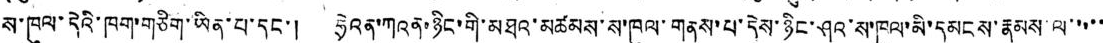ས་ཁུལ་དེའི་ཁག་གཅིག་ཡིན་པ་དང་། ཧྲེའན་ཀའན་ཉིང་གི་མཐའ་མཚམས་ས་ཁུལ་གནས་དེས་ཉིང་ཤའ་ས་ཁུལ་མི་དམངས་རྣམས་ལ་་་་་
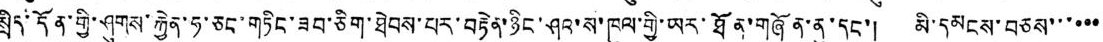སྲིད་དོན་གྱི་ཤུགས་རྐྱེན་ཧ་ཅང་གཏིང་ཟབ་ཅིག་ཐེབས་པར་བརྟེན་ཉིང་ཤའ་ས་ཁུལ་གྱི་ཡར་ཐོན་གཞོན་ནུ་དང་། མི་དམངས་བཅས་་་་་་
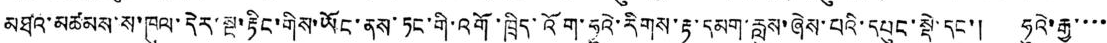མཐའ་མཚམས་ས་ཁུལ་དེར་སྔ་རྟིང་གིས་ཡོང་ནས་ཏང་གི་འགོ་ཁྲིད་འོག་ཧུའེ་རིགས་རྟ་དམག་རླུས་ཞེས་པའི་དཔུང་སྡེ་དང་། ཧུའེ་རྒྱ་་་་
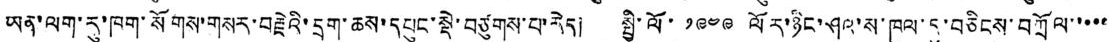ཡན་ལག་རུ་ཁག་སོགས་གསར་བརྗེའི་དྲག་ཆས་དཔུང་སྡེ་བཙུགས་པ་རེད། སྤྱི་ལོ་ ༡༩༤༩ ལོར་ཉིང་ཤའ་ས་ཁུལ་དུ་བཅིངས་བཀྲོལ་་་་་
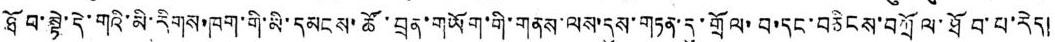ཐོབ་སྟེ་དེ་གའི་མི་རིགས་ཁག་གི་མི་དམངས་ཚོ་བྲན་གཡོག་གི་གནས་ལས་དུས་གཏན་དུ་གྲོལ་བ་དང་བཅིངས་བཀྲོལ་ཐོབ་པ་རེད།
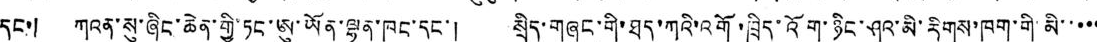དང་། ཀའན་སུ་ཞིང་ཆེན་གྱི་ཏང་ཨུ་ཡོན་ལྷན་ཁང་དང་། སྲིད་གཞུང་གི་ཐད་ཀའི་འགོ་ཁྲིད་འོག་ཉིང་ཤའ་མི་རིགས་ཁག་གི་མི་་་་་
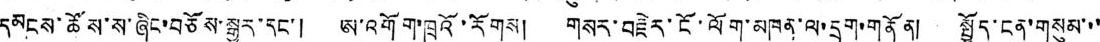དམངས་ཚོས་ས་ཞིང་བཅོས་སྒྱུར་དང་། ཨ་འགོག་ཁྲའོ་རོགས། གསར་བརྗེར་ངོ་ལོག་མཁན་ལ་དྲག་གནོན། སྤྱོད་ངན་གསུམ་་་
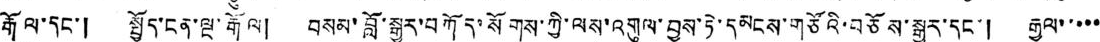རྒོལ་དང་། སྤྱོད་ངན་ལྔ་རྒོལ། བསམ་བློ་སྒྱུར་བཀོད་སོགས་ཀྱི་ལས་འགུལ་བྱས་ཏེ་དམངས་གཙོའི་བཅོས་སྒྱུར་དང་། རྒྱལ་་་་་
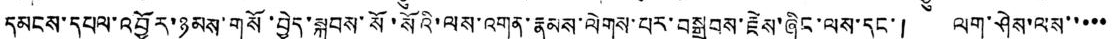དམངས་དཔལ་འབྱོར་ཉམས་གསོ་བྱེད་སྐབས་སོ་སོའི་ལས་འགན་རྣམས་ལེགས་པར་བསྒྲུབས་རྗེས་ཞིང་ལས་དང་། ལག་ཤེས་ལས་་་་་
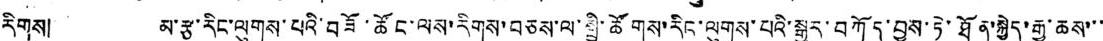རིགས། མ་རྩ་རིང་ལུགས་པའི་བཟོ་ཚོང་ལས་རིགས་བཅས་ལ་སྤྱི་ཚོགས་རིང་ལུགས་པའི་སྒྱུར་བཀོད་བྱས་ཏེ་ཐོན་སྐྱེད་རྒྱུ་ཆས་་་
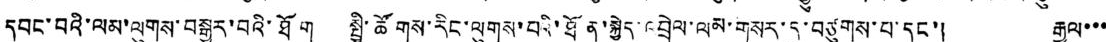དབང་བའི་ལམ་ལུགས་བསྒྱུར་བའི་ཐོག སྤྱི་ཚོགས་རིང་ལུགས་པའི་ཐོན་སྐྱེད་འབྲེལ་ལམ་གསར་དུ་བཙུགས་པ་དང་། རྒྱལ་་་
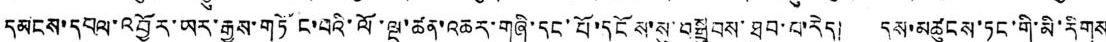དམངས་དཔལ་འབྱོར་ཡར་རྒྱས་གཏོང་བའི་ལོ་ལྔ་ཚན་འཆར་གཞི་དང་པོ་དངོས་སུ་བསྒྲུབས་ཐུབ་པ་རེད། དུས་མཚུངས་ཏང་གི་མི་རིགས
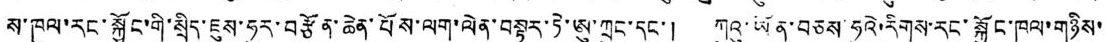ས་ཁུལ་རང་སྐྱོང་གི་སྲིད་ཇུས་ཧུར་བརྩོན་ཆེན་པོས་ལག་ལེན་བསྟར་ཏེ་ཨུ་ཀྲུང་དང་། ཀུའུ་ཡོན་བཅས་ཧུའེ་རིགས་རང་སྐྱོང་ཁུལ་གཉིས་་
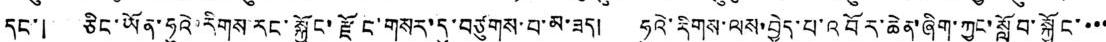དང་། ཅིང་ཡོན་ཧུའེ་རིགས་རང་སྐྱོང་རྫོང་གསར་དུ་བཙུགས་པ་མ་ཟད། ཧུའེ་རིགས་ལས་བྱེད་པ་འབོར་ཆེན་ཞིག་ཀྱང་སློབ་སྐྱོང་་་་
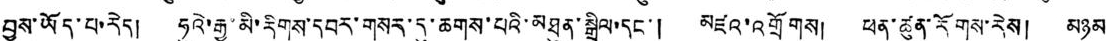བྱས་ཡོད་པ་རེད། ཧུའེ་རྒྱ་མི་རིགས་དབར་གསར་དུ་ཆགས་པའི་མཐུན་སྒྲིལ་དང་། མཛའ་འགྲོགས། ཕན་ཚུན་རོགས་རེས། མཉམ
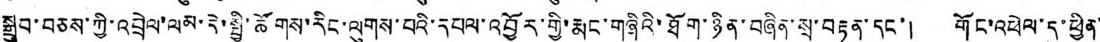སྒྲུབ་བཅས་ཀྱི་འབྲེལ་ལམ་དེ་སྤྱི་ཚོགས་རིངས་ལུགས་པའི་དཔལ་འབྱོར་གྱི་རྨང་གཞིའི་ཐོག་ཉིན་བཞིན་སྲ་བརྟན་དང་། གོང་འཕེལ་དུ་ཕྱིན་
